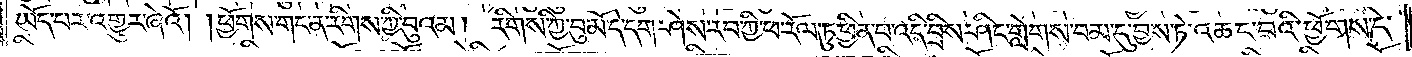ཡོད་པར་འགྱུར་ཞེའོ། །ཕྱོགས་གང་ན་རིགས་ཀྱི་བུའམ། རིགས་ཀྱི་བུ་མོ་དེ་དག་ཤེས་རབ་ཀྱི་ཕ་རོལ་ཏུ་ཕྱིན་པ་འདི་བྲིས་ཤིང་གླེགས་བམ་དུ་བྱས་ཏེ་འཆང་བའི་ཕྱོགས་དེ་
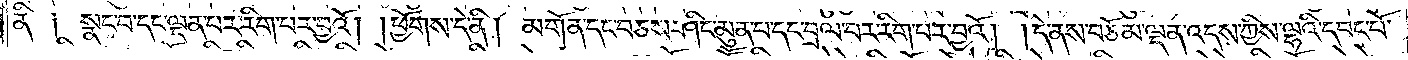ནི༑ སྣང་བ་དང་ལྡན་པར་རིག་པར་བྱའོ། །ཕྱོགས་དེ་ནི། མགོན་དང་བཅས་ཤིང་མུན་པ་དང་བྲལ་བར་རིག་པར་བྱའོ། །དེ་ནས་བཅོམ་ལྡན་འདས་ཀྱིས་ལྷའི་དབང་པོ་
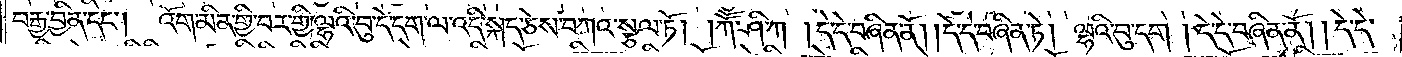བརྒྱ་བྱིན་དང༌། འོག་མིན་གྱི་བར་གྱི་ལྷའི་བུ་དེ་དག་ལ་འདི་སྐད་ཅེས་བཀའ་སྩལ་ཏོ། །ཀཽ་ཤི་ཀ། དེ་དེ་བཞིན་ནོ། །དེ་དེ་བཞིན་ཏེ། ལྷའི་བུ་དག། དེ་དེ་བཞིན་ནོ། །དེ་དེ་
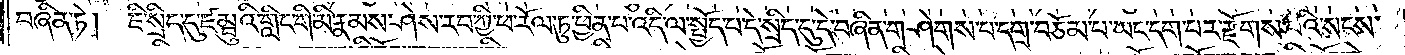བཞིན་ཏེ། ཇི་སྲིད་དུ་ཛམྦུའི་གླིང་གི་མི་རྣམས་ཤེས་རབ་ཀྱི་ཕ་རོལ་ཏུ་ཕྱིན་པ་འདི་ལ་སྤྱོད་པ་དེ་སྲིད་དུ་དེ་བཞིན་གཤེགས་པ་དགྲ་བཅོམ་པ་ཡང་དག་པར་རྫོགས་པའི་སངས་
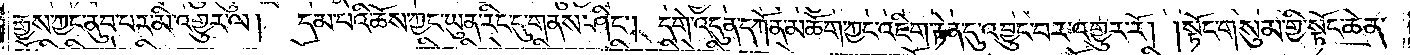རྒྱས་ཀྱང་ནུབ་པར་མི་འགྱུར་ལ། དམ་པའི་ཆོས་ཀྱང་ཡུན་རིང་དུ་གནས་ཤིང༌། དགེ་འདུན་དཀོན་མཆོག་ཀྱང་འཇིག་རྟེན་དུ་འབྱུང་བར་འགྱུར་རོ། །སྟོང་གསུམ་གྱི་སྟོང་ཆེན་
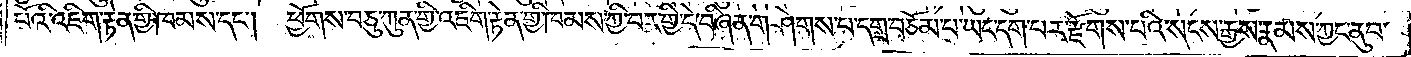པོའི་འཇིག་རྟེན་གྱི་ཁམས་དང༌། ཕྱོགས་བཅུ་ཀུན་གྱི་འཇིག་རྟེན་གྱི་ཁམས་ཀྱི་བར་གྱི་དེ་བཞིན་གཤེགས་པ་དགྲ་བཅོམ་པ་ཡང་དག་པར་རྫོགས་པའི་སངས་རྒྱས་རྣམས་ཀྱང་ནུབ་
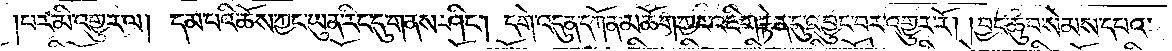པར་མི་འགྱུར་ལ། དམ་པའི་ཆོས་ཀྱང་ཡུན་རིང་དུ་གནས་ཤིང༌། དགེ་འདུན་དཀོན་མཆོག་ཀྱང་འཇིག་རྟེན་དུ་འབྱུང་བར་འགྱུར་རོ། །བྱང་ཆུབ་སེམས་དཔའ་
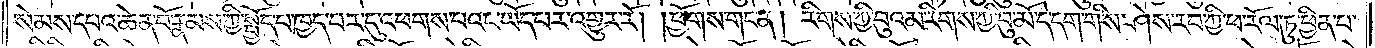སེམས་དཔའ་ཆེན་པོ་རྣམས་ཀྱི་སྤྱོད་པ་ཁྱད་པར་དུ་འཕགས་པའང་ཡོད་པར་འགྱུར་རོ། །ཕྱོགས་གང་ན། རིགས་ཀྱི་བུའམ་རིགས་ཀྱི་བུ་མོ་དེ་དག་གིས་ཤེས་རབ་ཀྱི་ཕ་རོལ་ཏུ་ཕྱིན་པ་
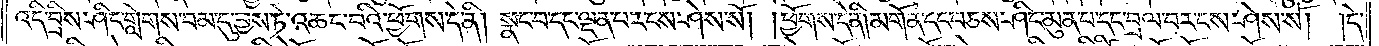འདི་བྲིས་ཤིང་གླེགས་བམ་དུ་བྱས་ཏེ་འཆང་བའི་ཕྱོགས་དེ་ནི། སྣང་བ་དང་ལྡན་པར་ངས་ཤེས་སོ། །ཕྱོགས་དེ་ནི།མགོན་དང་བཅས་ཤིང་མུན་པ་དང་བྲལ་བར་ངས་ཤེས་སོ། །དེ་
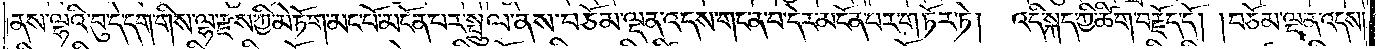ནས་ལྷའི་བུ་དེ་དག་གིས་ལྷ་རྫས་ཀྱི་མེ་ཏོག་མང་པོ་མངོན་པར་སྤྲུལ་ནས་བཅོམ་ལྡན་འདས་གང་ན་བ་དེར་མངོན་པར་གཏོར་ཏེ། འདི་སྐད་ཀྱི་ཚིག་བརྗོད་དོ། །བཅོམ་ལྡན་འདས་
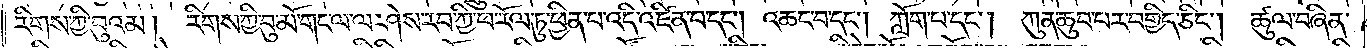རིགས་ཀྱི་བུའམ། རིགས་ཀྱི་བུ་མོ་གང་ལ་ལ་ཤེས་རབ་ཀྱི་ཕ་རོལ་ཏུ་ཕྱིན་པ་འདི་འཛིན་པ་དང༌། འཆང་བ་དང༌། ཀློག་པ་དང༌། ཀུན་ཆུབ་པར་བགྱིད་ཅིང༌། ཚུལ་བཞིན་
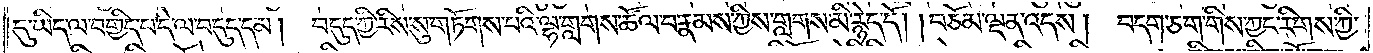དུ་ཡིད་ལ་བགྱིད་བ་དེ་ལ་བདུད་དམ། བདུད་ཀྱི་རིས་སུ་གཏོགས་པའི་ལྷ་གླགས་འཚོལ་བ་རྣམས་ཀྱིས་གླགས་མི་རྙེད་དོ། །བཅོམ་ལྡན་འདས། བདག་ཅག་གིས་ཀྱང་རིགས་ཀྱི་
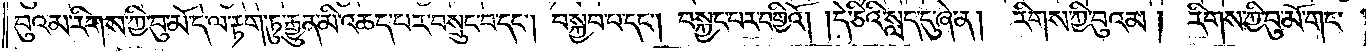བུའམ་རིགས་ཀྱི་བུ་མོ་དེ་ལ་རྟག་ཏུ་རྒྱུན་མི་འཆད་པར་བསྲུང་བ་དང༌། བསྐྱབ་པ་དང༌། བསྐྱང་བ་བགྱིའོ། །དེ་ཅིའི་སླད་དུ་ཞེ་ན། རིགས་ཀྱི་བུའམ། རིགས་ཀྱི་བུ་མོ་གང་
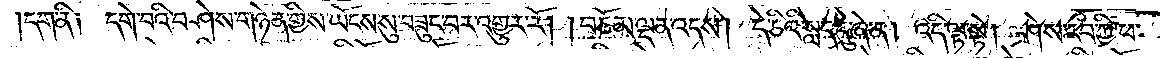དག་ནི། དགེ་བའི་བཤེས་གཉེན་གྱིས་ཡོངས་སུ་བཟུང་བར་འགྱུར་རོ། །བཅོམ་ལྡན་འདས། དེ་ཅིའི་སླད་དུ་ཞེ་ན། འདི་ལྟ་སྟེ། ཤེས་རབ་ཀྱི་ཕ་
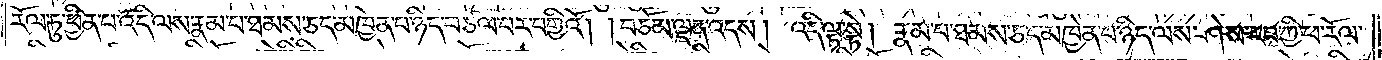རོལ་ཏུ་ཕྱིན་པ་འདི་ལས་རྣམ་པ་ཐམས་ཅད་མཁྱེན་པ་ཉིད་བཙལ་བར་བགྱིའོ། །བཅོམ་ལྡན་འདས། འདི་ལྟ་སྟེ། རྣམ་པ་ཐམས་ཅད་མཁྱེན་པ་ཉིད་ལས་ཤེས་རབ་ཀྱི་ཕ་རོལ་
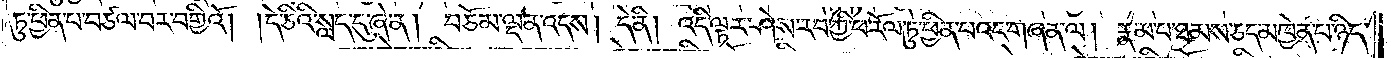ཏུ་ཕྱིན་པ་བཙལ་བར་བགྱིའོ། །དེ་ཅིའི་སླད་དུ་ཞེ་ན། བཅོམ་ལྡན་འདས། དེ་ནི། འདི་ལྟར་ཤེས་རབ་ཀྱི་ཕ་རོལ་ཏུ་ཕྱིན་པའང་གཞན་ལ། རྣམ་པ་ཐམས་ཅད་མཁྱེན་པ་ཉིད་
